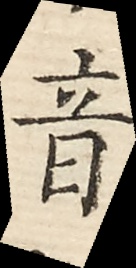音
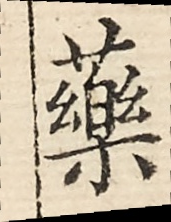藥
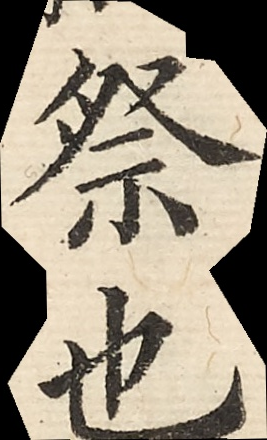祭也
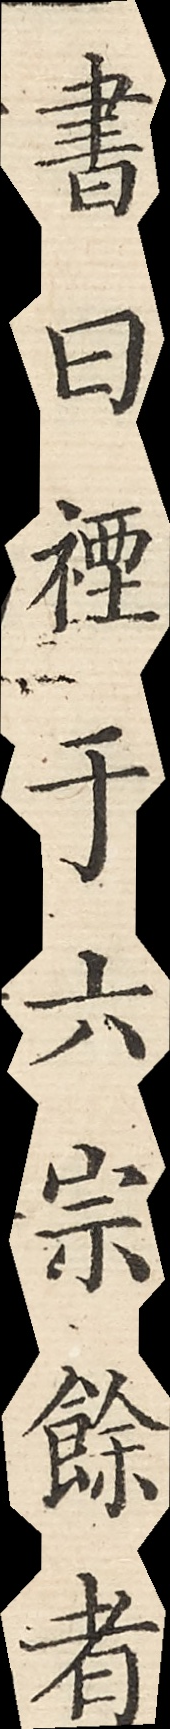書曰禋于六宗餘者
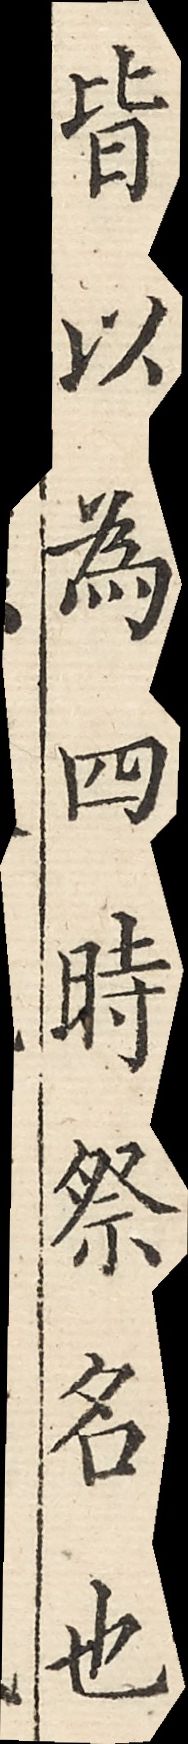皆以為四時祭名也
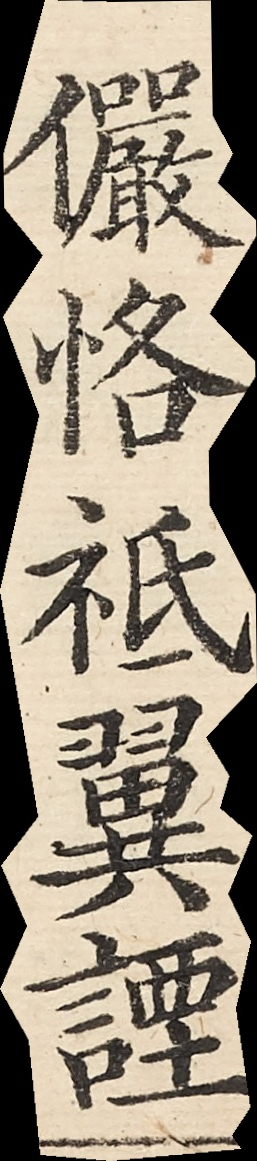儼恪祗翼諲
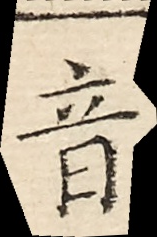音
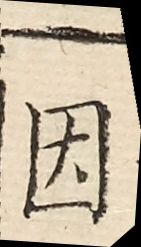因
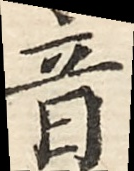音
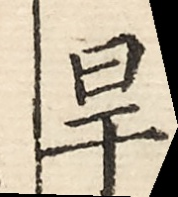旱
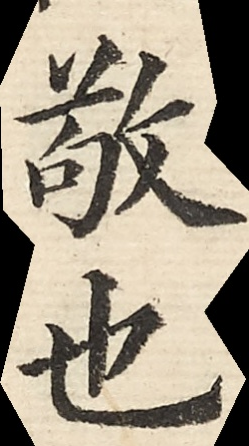敬也
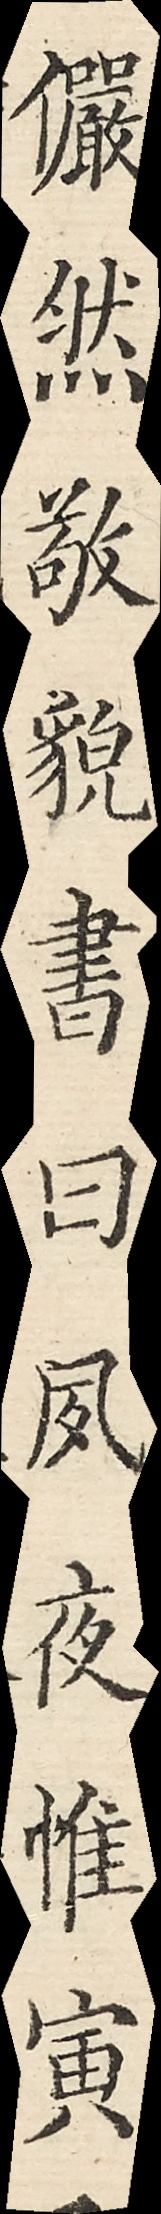儼然敬貌書曰夙夜惟寅
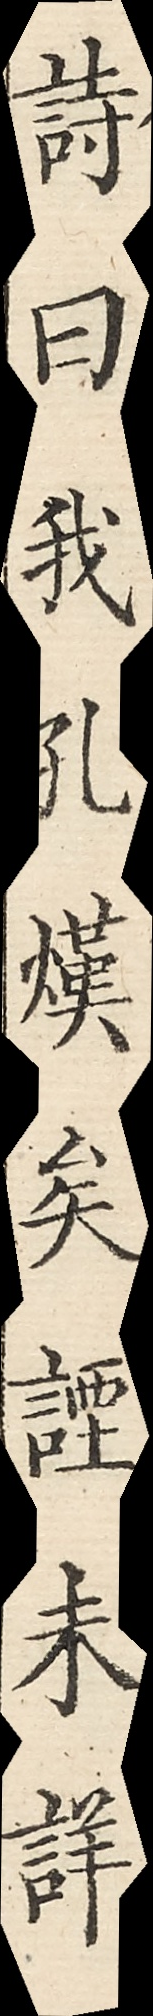詩曰我孔熯矣諲未詳
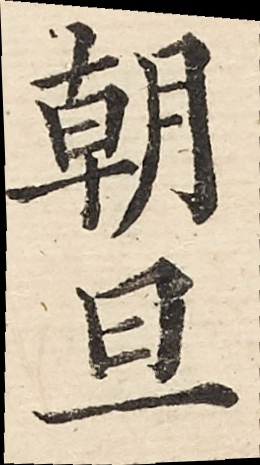朝旦
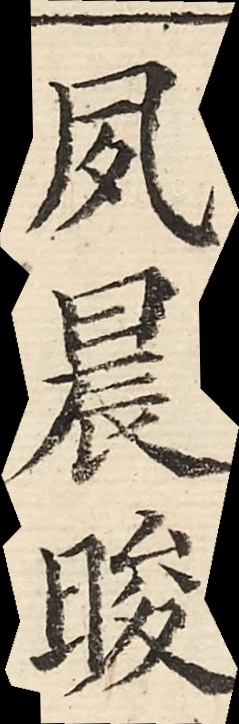夙晨晙
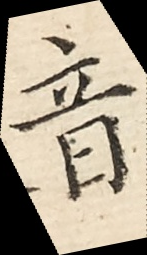音
